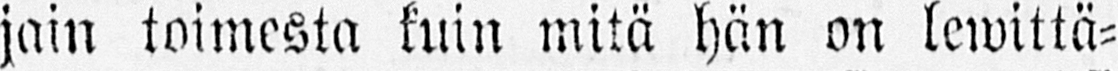jain toimesta kuin mitä hän on lewittä-
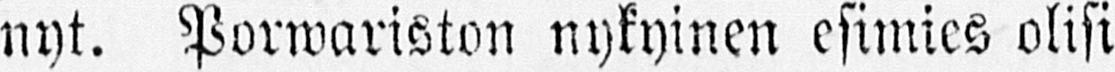nyt. Porwariston nykyinen esimies olisi
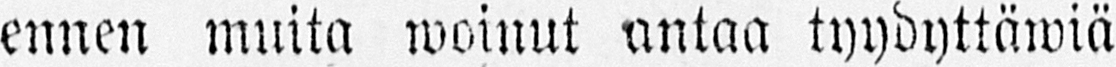ennen muita woinut antaa tyydyttäwiä
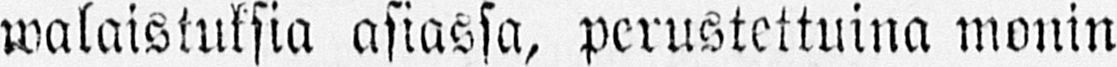walaistuksia asiassa, perustettuina monin
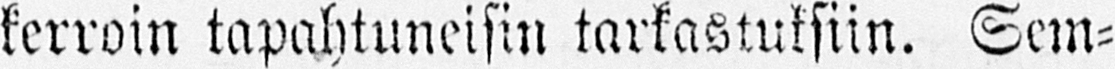kerroin tapahtuneisin tarkastuksiin. Sem-
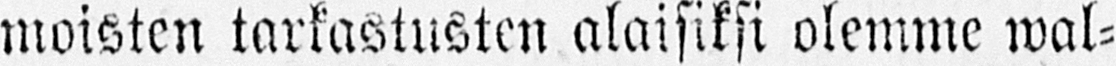moisten tarkastusten alaisiksi olemme wal-
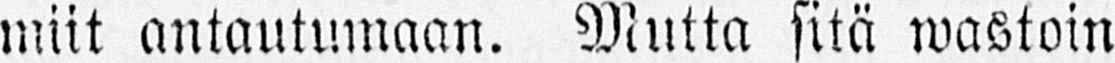miit antautumaan. Mutta sitä wastoin
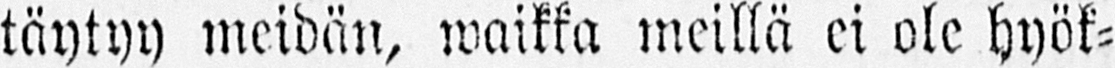täytyy meidän, waikka meillä ei ole hyök-
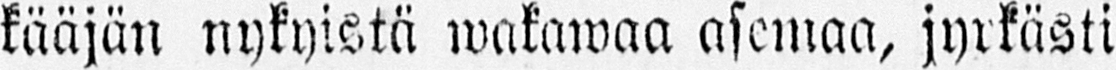kääjän nykyistä wakawaa asemaa, jyrkästi
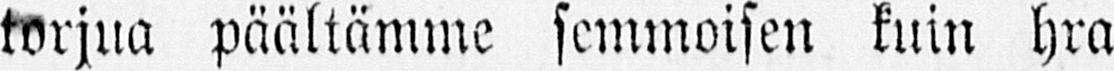torjua päältämme semmoisen kuin hra
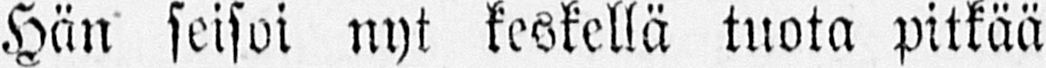Hän seisoi nyt keskellä tuota pitkää
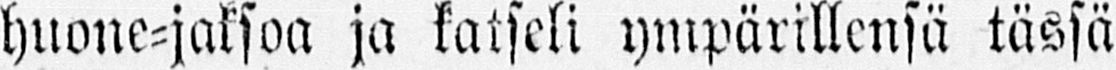huone-jaksoa ja katseli ympärillensä tässä
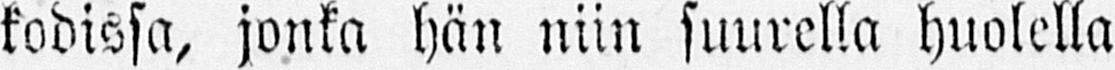kodissa, jonka hän niin suurella huolella
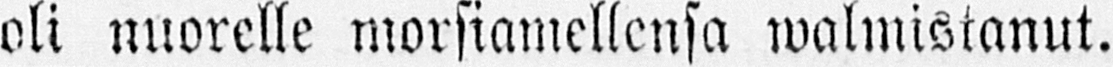oli nuorelle morsiamellensa walmistanut.
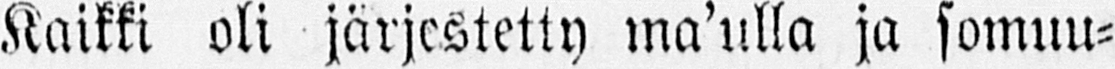Kaikki oli järjestetty ma'ulla ja somuu-
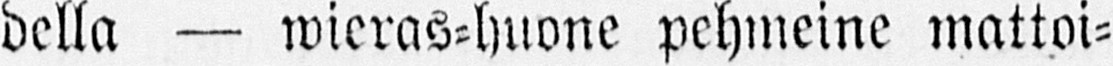della — wieras-huone pehmeine mattoi-
